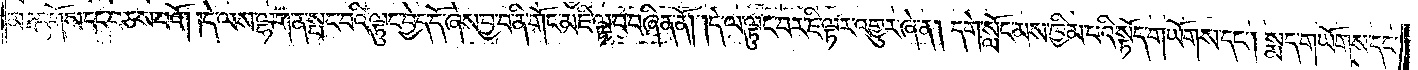མཐང་གོས་དང་བཅས་པའོ། །དེ་ལས་ལྷག་ན་སྤང་བའི་ལྟུང་བྱེད་དོ་ཞེས་བྱ་བ་ནི་གོང་མ་ཇི་ལྟ་བ་བཞིན་ནོ། །དེ་ལ་ལྟུང་བར་ཇི་ལྟར་འགྱུར་ཞེ་ན། དགེ་སློང་མས་ཁྱིམ་པའི་སྟོད་གཡོགས་དང༌། སྨད་གཡོགས་དང་
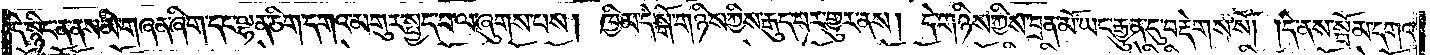དེ་སྙིང་ན་ནས་མི་གཞན་ཞིག་དང་ལྷན་ཅིག་དགའ་མགུར་སྤྱད་པ་ལ་ཞུགས་པས། ཁྱིམ་དེ་སྒོ་གཉིས་ཀྱིས་རྒུད་པར་གྱུར་ནས། དེ་གཉིས་ཀྱིས་བྲན་མོ་ཡང་རྒྱུན་དུ་བརྡེགས་སོ། །དེ་ནས་སྦོམ་དགའ་
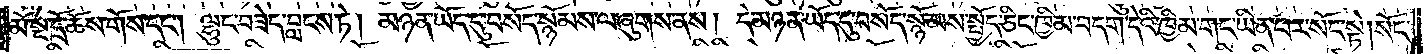མོ་སྔ་དྲོ་ཆོས་གོས་དང༌། ལྷུང་བཟེད་བླངས་ཏེ། མཉན་ཡོད་དུ་བསོད་སྙོམས་ལ་ཞུགས་ནས། དེ་མཉན་ཡོད་དུ་བསོད་སྙོམས་སྤྱོད་ཅིང་ཁྱིམ་བདག་དེའི་ཁྱིམ་གང་ཡིན་པར་སོང་སྟེ། སོང་
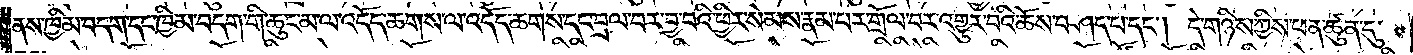ནས་ཁྱིམ་བདག་དང་ཁྱིམ་བདག་གི་ཆུང་མ་ལ་འདོད་ཆགས་ལ་འདོད་ཆགས་དང་བྲལ་བར་བྱ་བའི་ཕྱིར་སེམས་རྣམ་པར་གྲོལ་བར་འགྱུར་བའི་ཆོས་བཤད་པ་དང༌། དེ་གཉིས་ཀྱིས་ཕན་ཚུན་དུ་
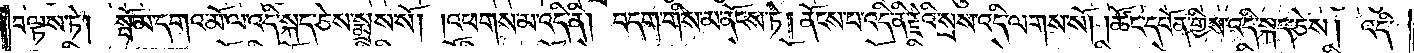བལྟས་ཏེ། སྦོམ་དགའ་མོ་ལ་འདི་སྐད་ཅེས་སྨྲས་སོ། །འཕགས་མ་འདི་ནི། བདག་གིས་མ་ནོངས་ཏེ། ནོངས་པ་འདི་ནི་རྗེའི་སྲས་འདི་ལགས་སོ། །ཚོང་དཔོན་གྱིས་འདི་སྐད་ཅེས། འདི་
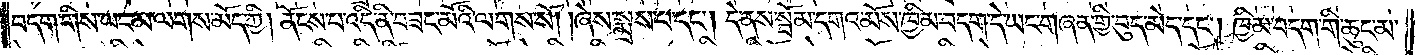བདག་གིས་ཡང་མ་ལགས་མོད་ཀྱི། ནོངས་པ་འདི་ནི་བཟང་མོའི་ལགས་སོ། །ཞེས་སྨྲས་པ་དང༌། དེ་ནས་སྦོམ་དགའ་མོས་ཁྱིམ་བདག་དེ་ཡང་གཞན་གྱི་བུད་མེད་དང༌། ཁྱིམ་བདག་གི་ཆུང་མ་
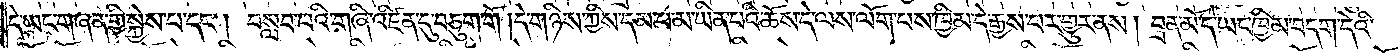དེ་ཡང་གཞན་གྱི་སྐྱེས་པ་དང༌། བསླབ་པའི་གཞི་འཛིན་དུ་བཅུག་གོ །དེ་གཉིས་ཀྱིས་དམ་པ་མ་ཡིན་པའི་ཆོས་དེ་ལས་ལོག་པས་ཁྱིམ་དེ་རྒྱས་པར་གྱུར་ནས། བྲན་མོ་དེ་ཡང་ཁྱིམ་བདག་དེའི་
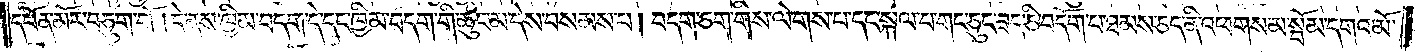དཔོན་མོར་བཅུག་གོ །དེ་ནས་ཁྱིམ་བདག་དེ་དང་ཁྱིམ་བདག་གི་ཆུང་མ་དེས་བསམས་པ། བདག་ཅག་གིས་ལེགས་པ་དང་སྐལ་པ་གང་ཅུང་ཟད་ཅི་བདོག་པ་ཐམས་ཅད་ནི་འཕགས་མ་སྦོམ་དགའ་མོ་
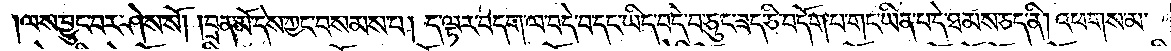ལས་བྱུང་བར་ཤེས་སོ། །བྲན་མོ་དེས་ཀྱང་བསམས་པ། ད་ལྟར་བདག་ལ་བདེ་བ་དང་ཡིད་བདེ་བ་ཅུང་ཟད་ཅི་བདོག་པ་གང་ཡིན་པ་དེ་ཐམས་ཅད་ནི། འཕགས་མ་
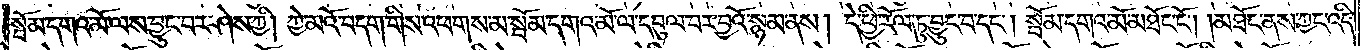སྦོམ་དགའ་མོ་ལས་བྱུང་བར་ཤེས་ཀྱི། ཀྱེ་མའོ་བདག་གིས་འཕགས་མ་སྦོམ་དགའ་མོ་ལ་དབུལ་བར་བྱའོ་སྙམ་ནས། དེ་ཕྱི་རོལ་ཏུ་བྱུང་བ་དང༌། སྦོམ་དགའ་མོ་མཐོང་ངོ༌། །མཐོང་ནས་ཀྱང་འདི་
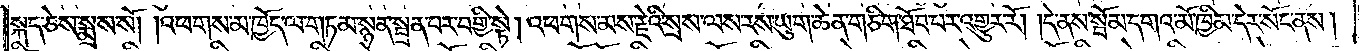སྐད་ཅེས་སྨྲས་སོ། །འཕགས་མ་ཁྱོད་ལ་གཏམ་སྙན་སྦྲན་པར་བགྱི་སྟེ། འཕགས་མས་རྗེའི་སྲས་ལས་རས་ཡུག་ཆེན་གཅིག་ཐོབ་པར་འགྱུར་རོ། །དེ་ནས་སྦོམ་དགའ་མོ་ཁྱིམ་དེར་སོང་ནས།
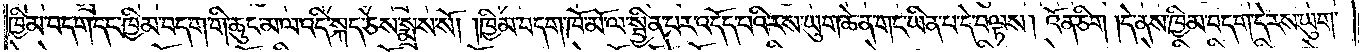ཁྱིམ་བདག་དང་ཁྱིམ་བདག་གི་ཆུང་མ་ལ་འདི་སྐད་ཅེས་སྨྲས་སོ། །ཁྱིམ་བདག་ཁོ་མོ་ལ་སྦྱིན་པར་འདོད་པའི་རས་ཡུག་ཆེན་གང་ཡིན་པ་དེ་བལྟས། འོན་ཅིག །དེ་ནས་ཁྱིམ་བདག་དེ་རས་ཡུག་
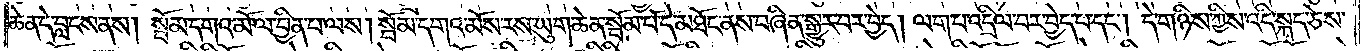ཆེན་དེ་བླངས་ནས། སྦོམ་དགའ་མོ་ལ་བྱིན་པ་ལས། སྦོམ་དགའ་མོས་རས་ཡུག་ཆེན་སྦོམ་པོ་དེ་མཐོང་ནས་བཞིན་སྒྱུར་བར་བྱེད། ལག་པ་འདྲིལ་བར་བྱེད་པ་དང༌། དེ་གཉིས་ཀྱིས་འདི་སྐད་ཅེས་
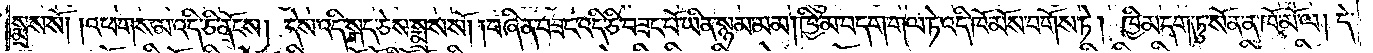སྨྲས་སོ། །འཕགས་མ་འདི་ཅི་ནོངས། དེས་འདི་སྐད་ཅེས་སྨྲས་སོ། །བཞིན་བཟང་འདི་ཅི་བཟང་པོ་ཡིན་སྙམ་མམ། ཁྱིམ་བདག་གལ་ཏེ་འདི་ཁོ་མོས་བགོས་ཏེ། ཁྱིམ་དག་ཏུ་སོན་ན་ཁོ་མོ་ལ། དེ་
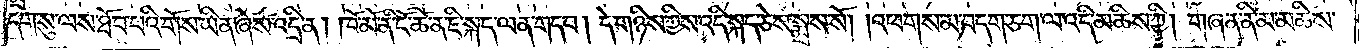དག་སུ་ལས་ཐོབ་པའི་གོས་ཡིན་ཞེས་འདྲི་ན། ཁོ་མོ་ནི་ངོ་ཚ་ན་ཇི་སྐད་ལན་གདབ། དེ་གཉིས་ཀྱིས་འདི་སྐད་ཅེས་སྨྲས་སོ། །འཕགས་མ་བདག་ཅག་ལ་འདི་མཆིས་ཀྱི། གཞན་ནི་མ་མཆིས་
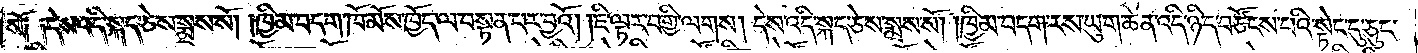སོ༑ ༑དེས་འདི་སྐད་ཅེས་སྨྲས་སོ། །ཁྱིམ་བདག་ཁོ་མོས་ཁྱོད་ལ་བསྟན་པར་བྱའོ། །ཇི་ལྟར་བགྱི་ལགས། དེས་འདི་སྐད་ཅེས་སྨྲས་སོ། །ཁྱིམ་བདག་རས་ཡུག་ཆེན་འདི་ཉིད་བཙོངས་པའི་སྟེང་དུ་ཅུང་
